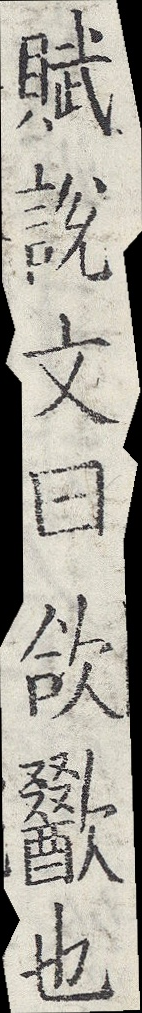賦說文曰欱歠也
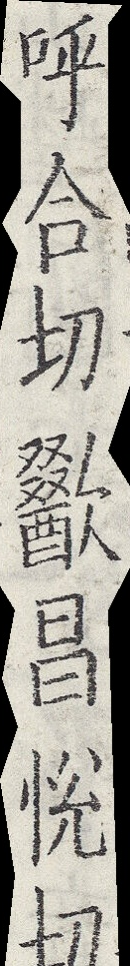呼合切歠昌悅切
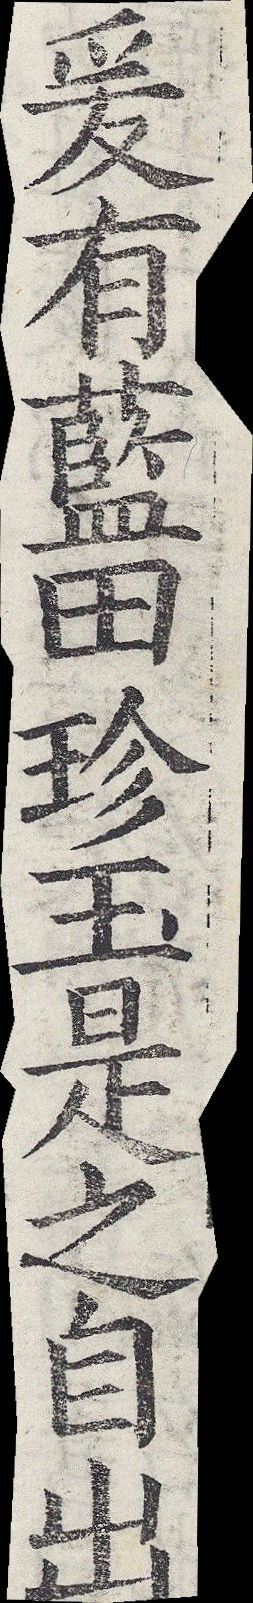爰有藍田珍玉是之自出
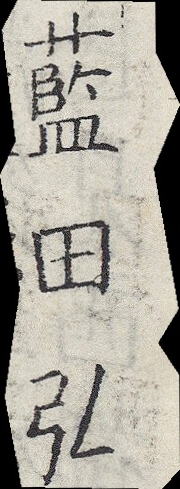藍田弘
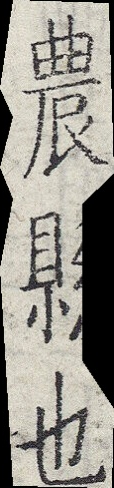農縣也
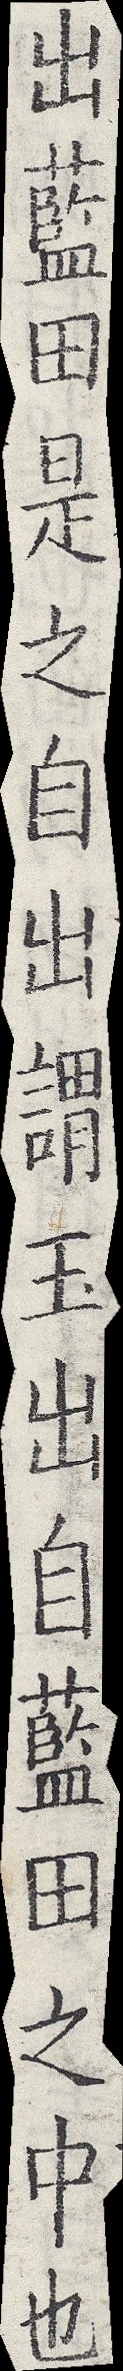出藍田是之自出謂玉出自藍田之中也
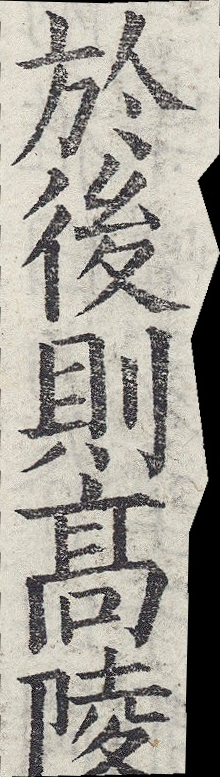於後則高陵
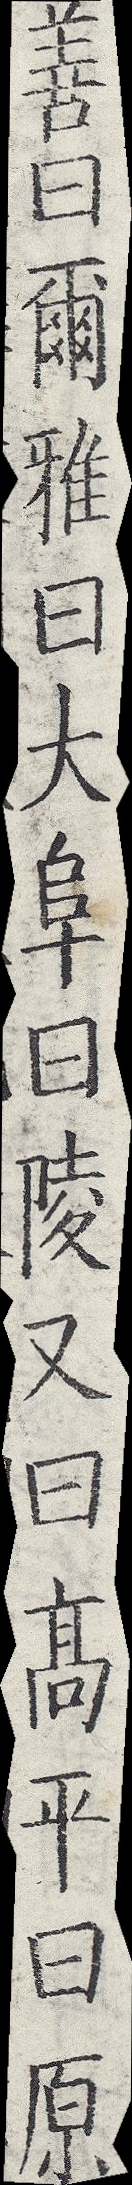善曰爾雅曰大阜曰陵又曰高平曰原
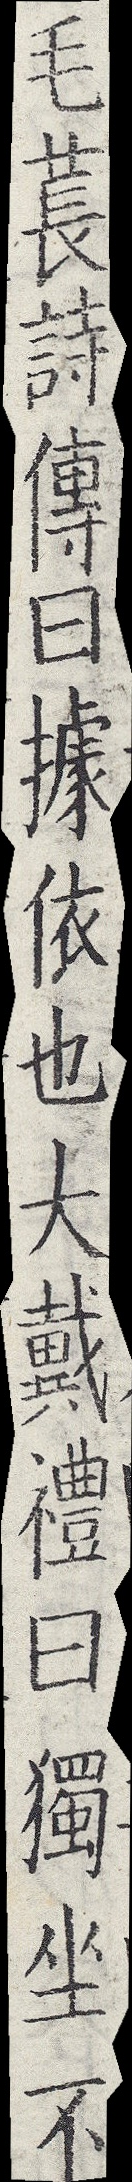毛萇詩傳曰據依也大戴禮曰獨坐不
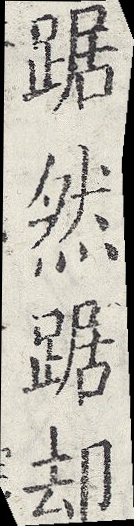踞然踞却
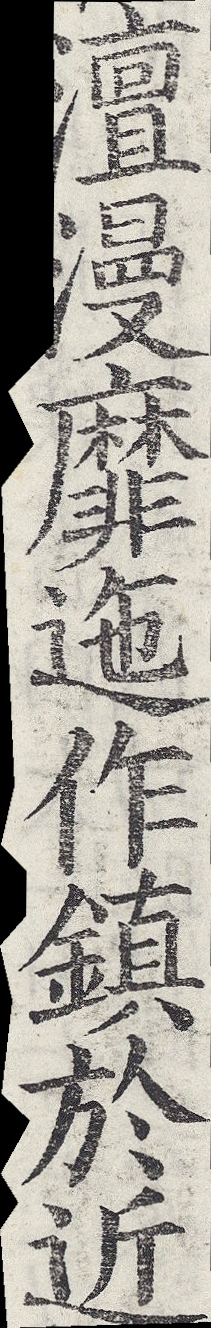澶漫靡迤作鎮於近
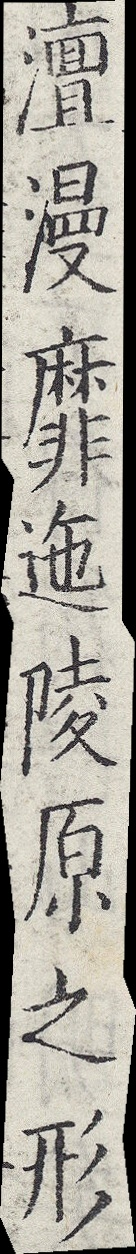澶漫靡迤陵原之形
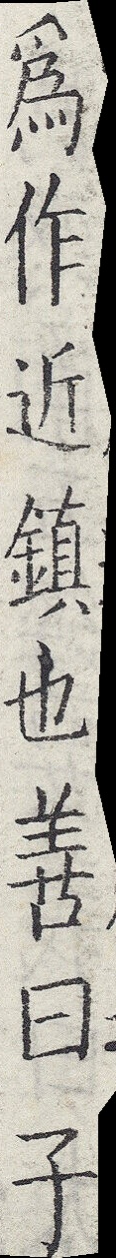為作近鎮也善曰子
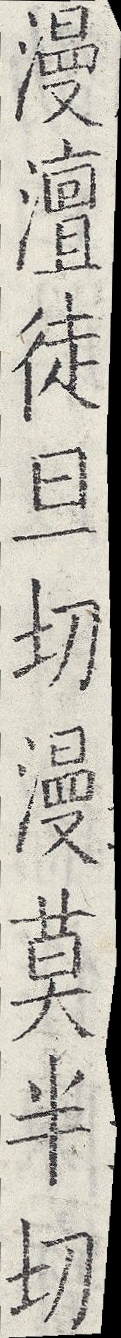漫澶徒旦切漫莫半切
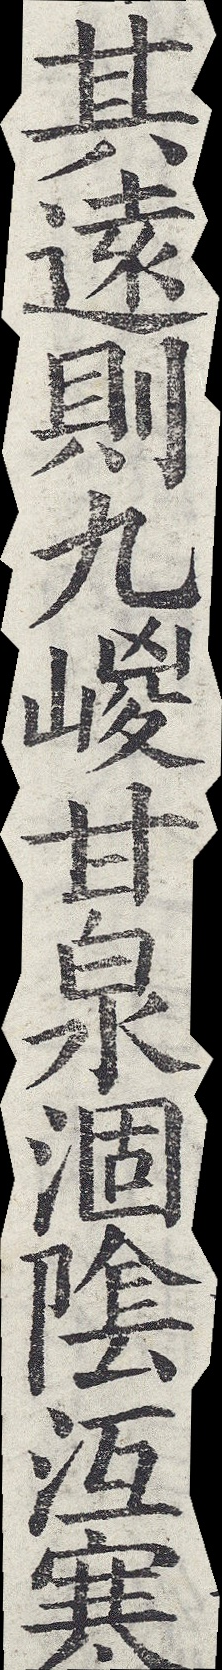其遠則九嵕甘泉涸陰沍寒
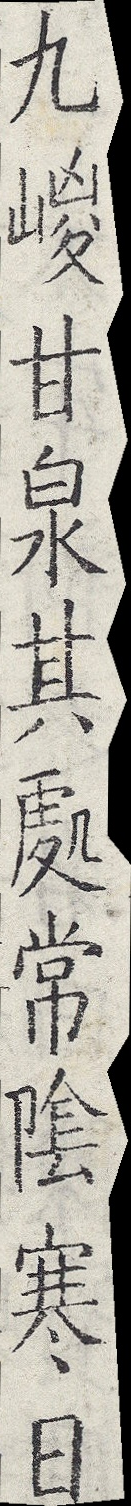九嵕甘泉其處常陰寒日
